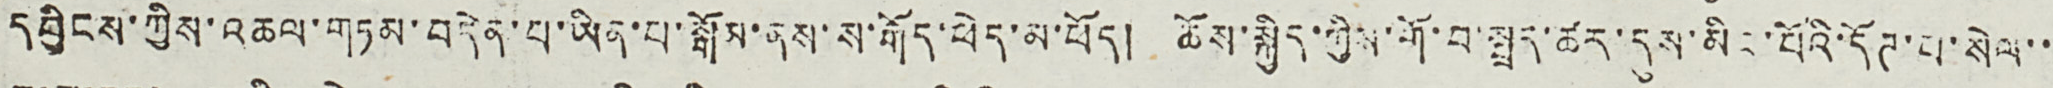དབྱིངས་ཀྱིས་འཆལ་གཏམ་བདེན་པ་ཡིན་པ་སྒོམ་ནས་ས་རྒོད་ཕེད་མ་ཕོད། ཆོས་སྐྱིད་ཀྱིས་གོ་བ་སྤྲད་ཚར་དུས་མིང་པོའི་དོཊ་པ་སེལ་་
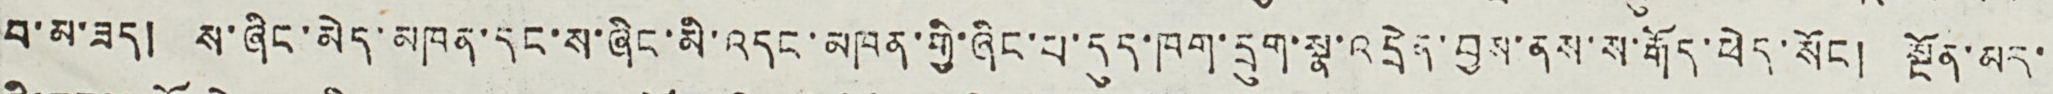བ་མ་ཟད། ས་ཞིང་མེད་མཁན་དང་ས་ཞིང་མི་འདང་མཁན་གྱི་ཞིང་པ་དུད་ཁག་དྲུག་སྣ་འདྲེན་བྱས་ནས་ས་རྒོད་ཕེད་སོང ། སྔོན་མར་
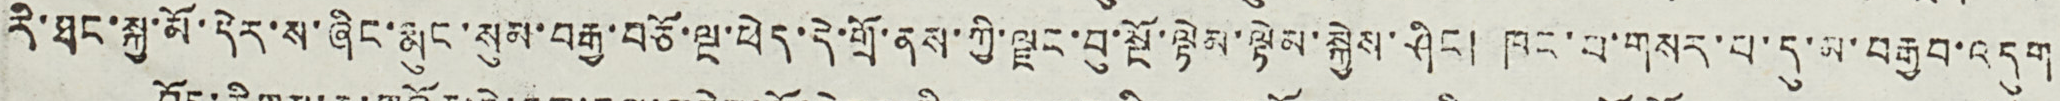རི་ཐང་སྐྱ་མོ་དེར་ས་ཞིང་རྨུང་སུམ་བརྒྱ་བཅོ་ལྔ་ཕེད་དེ་གྲོ་ནས་ཀྱི་ལྗང་བུ་སྔོ་ལྟེམ་ལྟེམ་སྐྱེས་ཤིང ། ཁང་པ་གསར་པ་དུ་མ་བརྒྱབ་འདུག
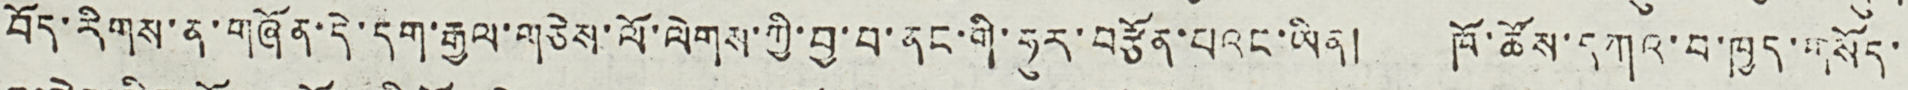བོད་རིགས་ན་གཞོན་དེ་དག་རྒྱལ་གཅེས་ལོ་ལེགས་ཀྱི་བྱ་བ་ནང་གི་ཧུར་བརྩོན་པའང་ཡིན། ཁོ་ཚོས་དཀའ་བ་ཁྱད་གསོད་
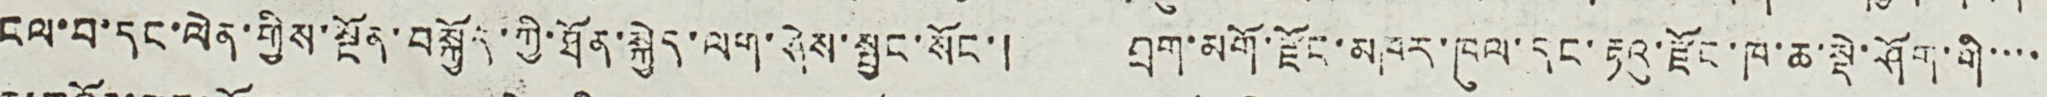ངལ་བ་དང་ལེན་གྱིས་སྔོན་བསྐྱོད་ཀྱི་ཐོན་སྐྱེད་ལག་ཤེས་སྦྱང་སོང་། བྲག་མགོ་རྫོང་མཁར་ཁུལ་དང་རྟའུ་རྫོང་ཁ་ཆ་སྡེ་ཤོག་གི་་་་
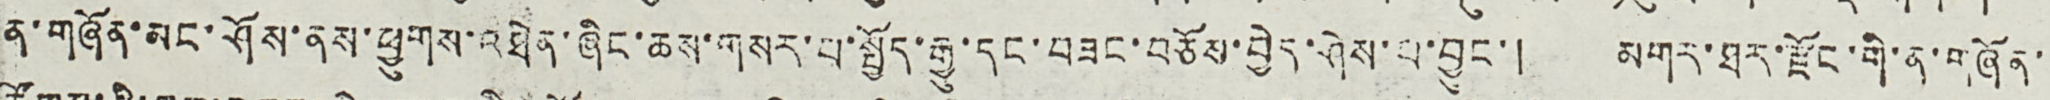ན་གཞོན་མང་ཤོས་ནས་ཕྱུགས་འཐེན་ཞིང་ཆས་གསར་པ་སྤྱོད་རྒྱུ་དང་བཟང་བཅོས་བྱེད་ཤེས་པ་བྱུང་། མགར་ཐར་རྫོང་གི་ན་གཞོན་
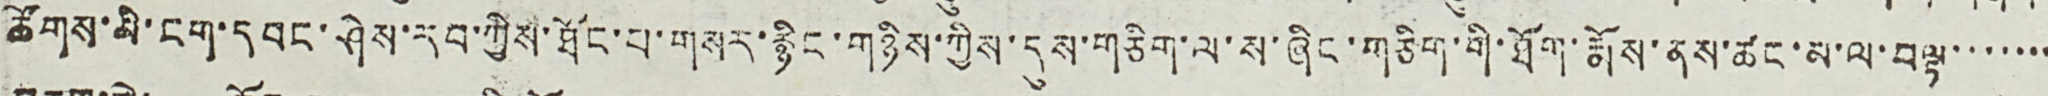ཚོགས་མི་ངག་དབང་ཤེས་རབ་ཀྱིས་ཐོང་པ་གསར་རྙིང་གཉིས་ཀྱིས་དུས་གཅིག་ལ་ས་ཞིང་གཅིག་གི་ཐོག་རྨོས་ནས་ཚང་མ་ལ་བལྟ་་་་་་་
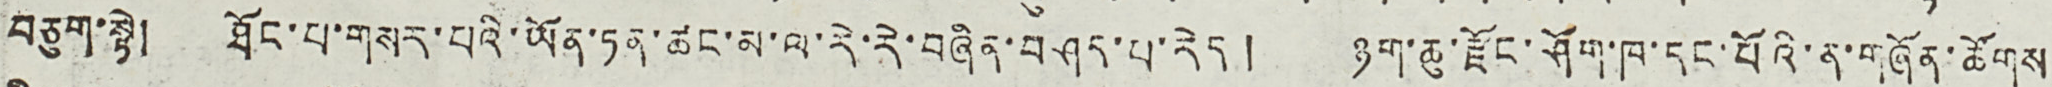བཅུག་སྟེ། ཐོང་བ་གསར་པའི་ཡོན་ཏན་ཚང་མ་ལ་རེ་རེ་བཞིན་བཤད་པ་རེད། ཉག་ཆུ་རྫོང་ཤོག་ཁ་དང་པོའི་ན་གཞོན་ཚོགས
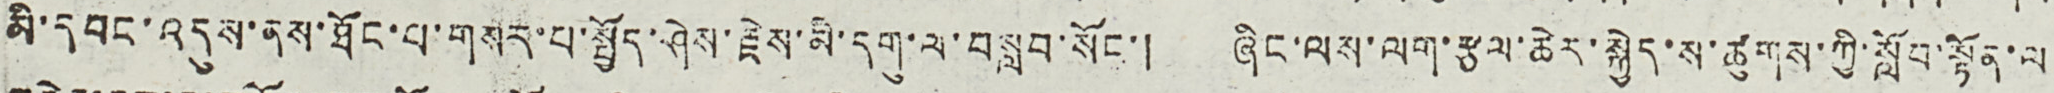མི་དབང་འདུས་ནས་ཐོང་བ་གསར་པ་སྤྱོད་ཤེས་རྗེས་མི་དགུ་ལ་བསླབ་སོང་། ཞིང་ལས་ལག་རྩལ་ཆེར་སྐྱེད་ས་ཚུགས་ཀྱི་སློབ་སྟོན་ལ
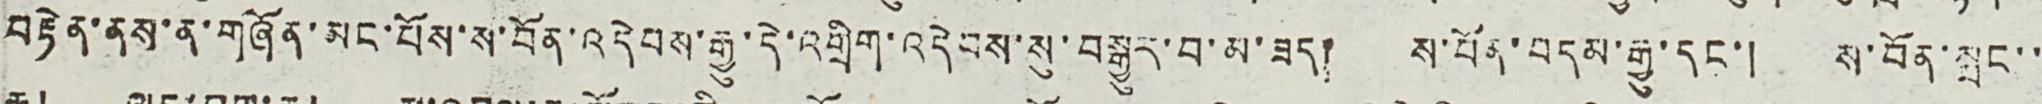བརྟེན་ནས་ན་གཞོན་མང་པོས་ས་བོན་འདེབས་རྒྱུ་དེ་འགྲིག་འདེབས་སུ་བསྒྱུར་བ་མ་ཟད། ས་བོན་བདམ་རྒྱུ་དང་། ས་བོན་སྲང་་
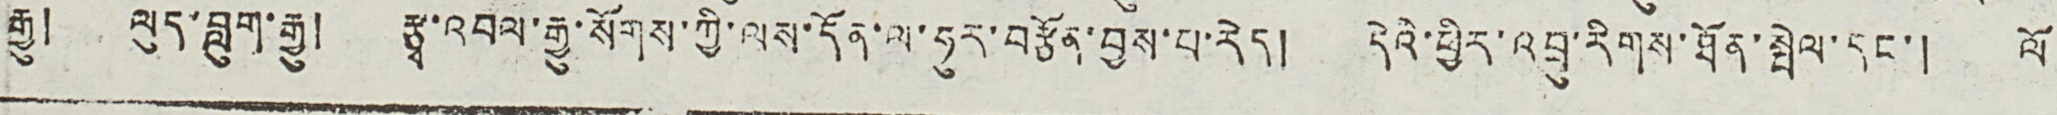རྒྱུ། ལུད་བླུག་རྒྱུ། རྩྭ་འབལ་རྒྱུ་སོགས་ཀྱི་ལས་དོན་ལ་ཧུར་བརྩོན་བྱས་པ་རེད། དེའི་ཕྱིར་འབྲུ་རིགས་ཐོན་སྤེལ་དང་། ལོ
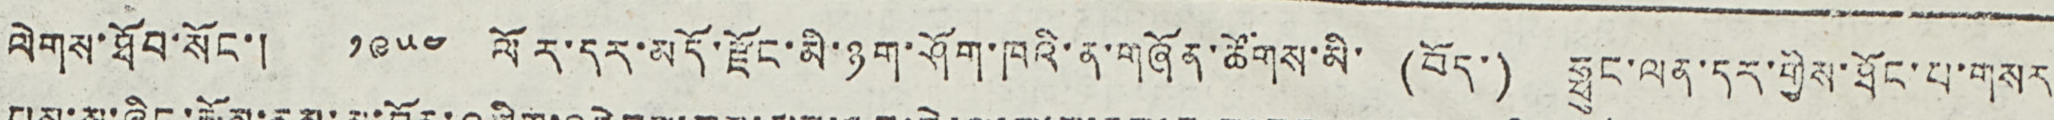ལེགས་ཐོབ་སོང་། ༡༩༥༤ ལོར་དར་མདོ་རྫོང་མི་ཉག་ཤོག་ཁའི་ན་གཞོན་ཚོགས་མི་ (བོད་) ཧྥུང་ལན་དར་གྱིས་ཐོང་པ་གསར
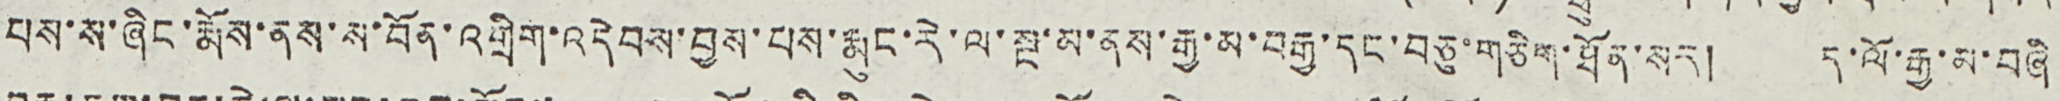པས་ས་ཞིང་རྨོས་ནས་ས་བོན་འགྲིག་འདེབས་བྱས་པས་རྨུང་རེ་ལ་སྔ་མ་ནས་རྒྱ་མ་བརྒྱ་དང་བཅུ་གཅིག་ཐོན་སར། ད་ལོ་རྒྱ་མ་བཞི
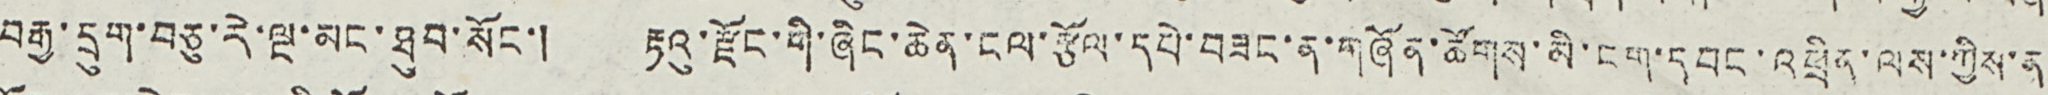བརྒྱ་དྲུག་བཅུ་རེ་ལྔ་མང་ཐུབ་སོང་། རྟའུ་རྫོང་གི་ཞིང་ཆེན་ངལ་རྩོལ་དཔེ་བཟང་ན་གཞོན་ཚོགས་མི་ངག་དབང་འཕྲིན་ལས་ཀྱིས་ན
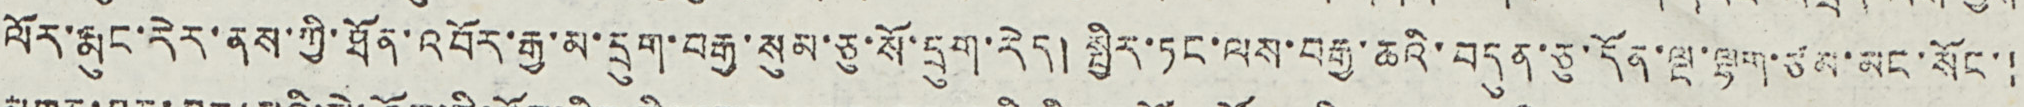ལོར་རྨུང་རེར་ནས་ཀྱི་ཐོན་འབོར་རྒྱ་མ་དྲུག་བརྒྱ་སུམ་ཅུ་སོ་དྲུག་རེད། སྤྱིར་ཏང་ལས་བརྒྱ་ཆའི་བདུན་ཅུ་དོན་ལྔ་ལྷག་ཙམ་མང་སོང་།
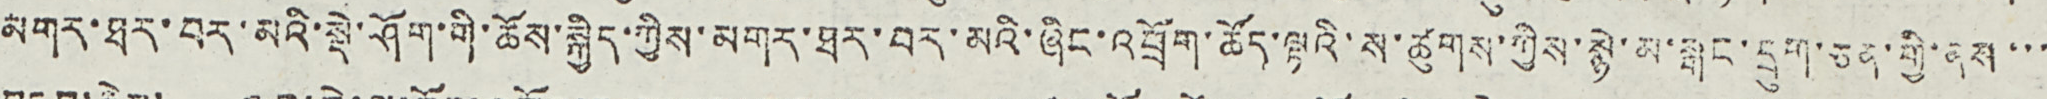མགར་ཐར་བར་མའི་སྡེ་ཤོག་གི་ཆོས་སྐྱིད་ཀྱིས་མགར་ཐར་བར་མའི་ཞིང་འབྲོག་ཚོད་ལྟའི་ས་ཚུགས་ཀྱིས་ཀྱིས་སྙེ་མ་སྒང་དྲུག་ཅན་གྱི་ནས་་་
